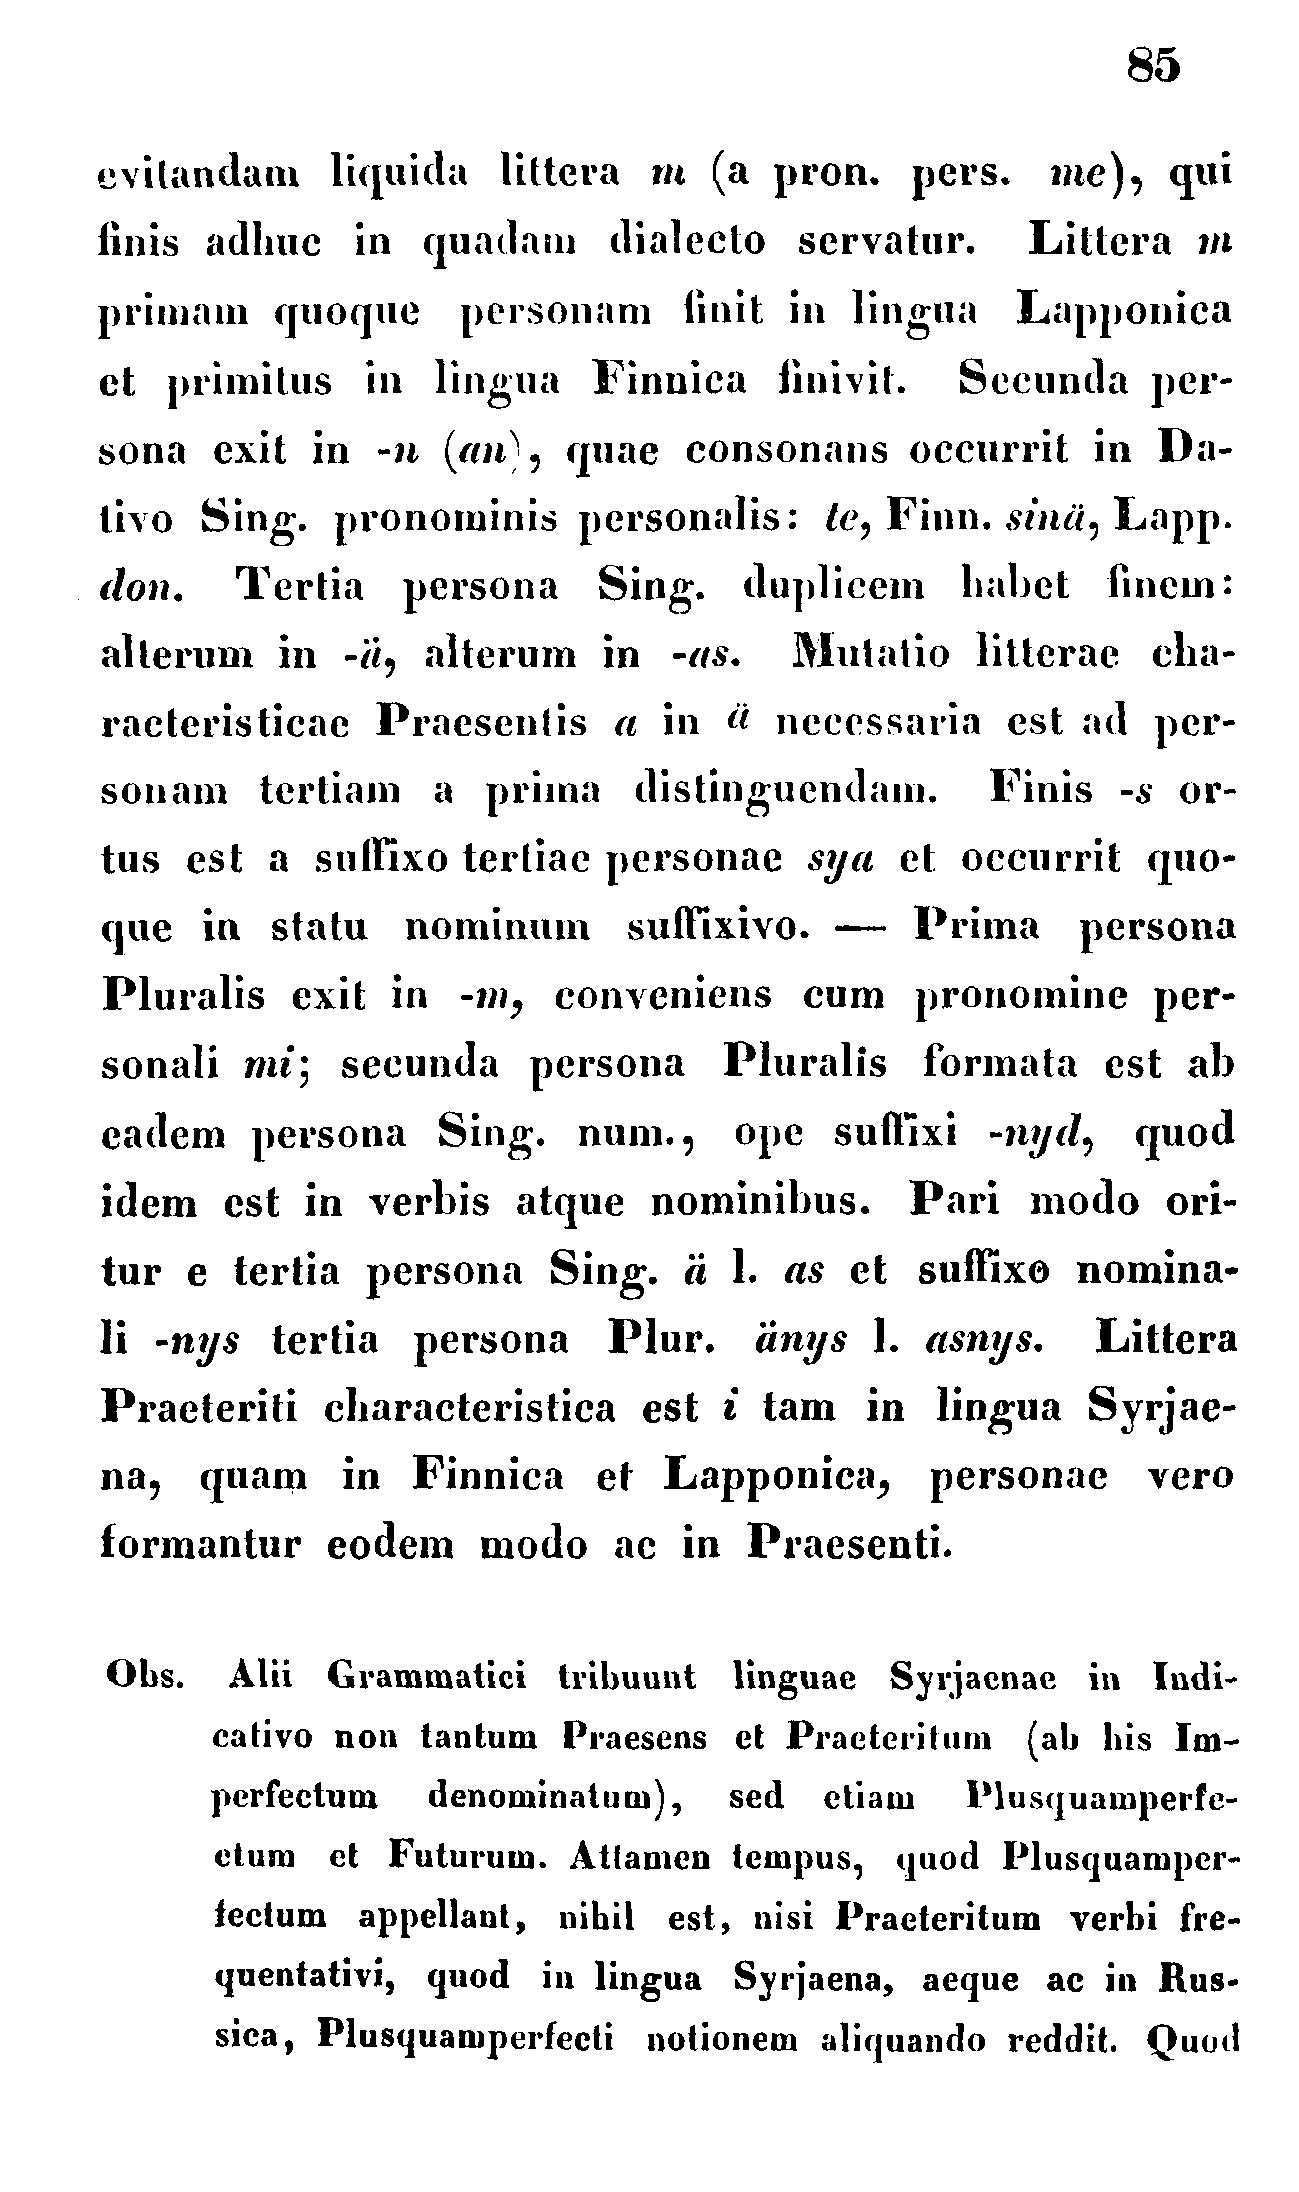85
evitandam liquida littera m (a pron. pers. me), qui
finis adhuc in quadam dialecto servatur. Littera m
primam quoque personam finit in lingua Lapponica
et primitus in lingua Finnica finivit. Secunda per-
sona exit in -n (an), quae consonans occurrit in Da-
tivo Sing. pronominis personalis: te, Finn. sinä, Lapp.
don. Tertia persona Sing. duplicem habet finem:
alterum in -ä, alterum in -as. Mutatio litterae cha-
racteristicae Praesentis a in ä necessaria est ad per-
sonam tertiam a prima distinguendam. Finis -s or-
tus est a suffixo tertiae personae sya et occurrit quo-
que in statu nominum suffixivo. — Prima persona
Pluralis exit in -m, conveniens cum pronomine per-
sonali mi; secunda persona Pluralis formata est ab
cadem persona Sing. num., ope suffixi -nyd, quod
idem est in verbis atque nominibus. Pari modo ori-
tur e tertia persona Sing. ä l. as et suffixo nomina-
li -nys tertia persona Plur. änys l. asnys. Littera
Praeteriti characteristica est i tam in lingua Syrjae-
na, quam in Finnica et Lapponica, personae vero
formantur eodem modo ac in Praesenti.
Obs. Alii Grammatici tribuunt linguae Syrjaenae in Indi-
cativo non tantum Praesens et Praeteritum (ab his Im-
perfectum denominatum), sed etiam Plusquamperfe-
ctum et Futurum. Atlamen tempus, quod Plusquamper-
fectum appellant, nihil est, nisi Praeteritum verbi fre-
quentativi, quod in lingua Syrjaena, aeque ac in Rus-
sica, Plusquamperfecti notionem aliquando reddit. Quod
